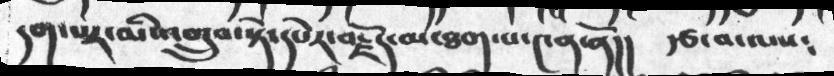དག་པར་མི་འགྲུབ་སྟེ་དཔེར་བརྗོད་མ་ཐག་པ་༤ན་ནོ།།  རྩ་བ་ལས༴
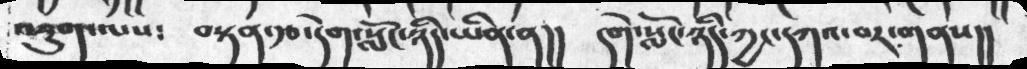འཇུག་ལས༴   བསྟན་རྩ་དགེ་སློང་ཉིད་ཡིན་ན།།   དགེ་སློང་ཉིད་ཀྱང་དཀའ་བར་གནས།།
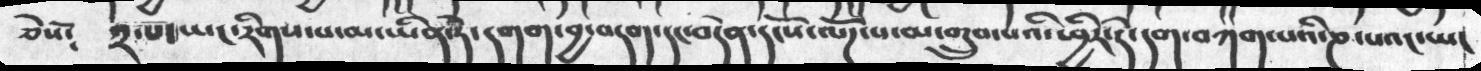ཅེསོ༴   ༢་པ་ཡང་རིགས་པ་མ་ཡིན་ཏེ་དགག་བྱ་བདག་དང་བདེན་དངོས་ལོཌ་པ་མ་གྲུབ་པའི་ཕྱིར་དེ་དག་བཀག་པའི་ཎ་པའང་ཡང
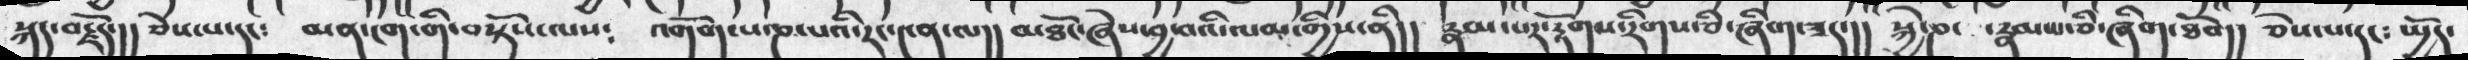སྐད་བརྗོད་།།  ཅེས་པ་དང༴  མན་ངག་གི་བསྟོད་ལས༴ འགོག་པ་ཎ་པའི་རང་༤ན་ལ།།  མཐོང་ཞེས་བྱ་བའི་ལམ་གྱིས་ནི།།  རྣམ་པར་རྟོགས་རིགས་ཅི་ཞིག་ཟད་།།  སྐྱེ་ཎ་ ་རྣམ་པ་ཅི་ཞིག་ཐོབ།།  ཅེས་པ་དང༴  སྤྱོད་
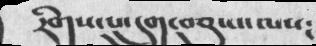རིགས་པ་དྲུག་བཅུ་པ་ལས༴
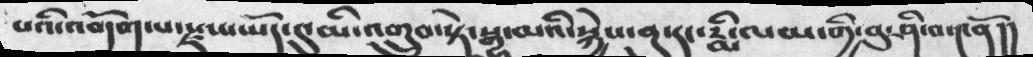པའི་འགོག་པ་སྫས་ཡོད་དུ་མི་འགྲུབ་སྟེ་སྒྱུ་མའི་སྐྱེས་བུ་དང་རྨི་ལམ་གྱི་བུ་ཤི་བ་༤ནོ།།
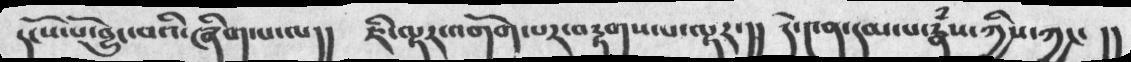དངོས་པོ་བྱུང་བའི་ཞིག་པ་ལ།།   ཇི་ལྟར་འགོག་པར་བརྟགས་པ་ལྟར་།།  དེ་༤ན་དམ་པ་རྣཾས་ཀྱིས་ཀྱང་།།
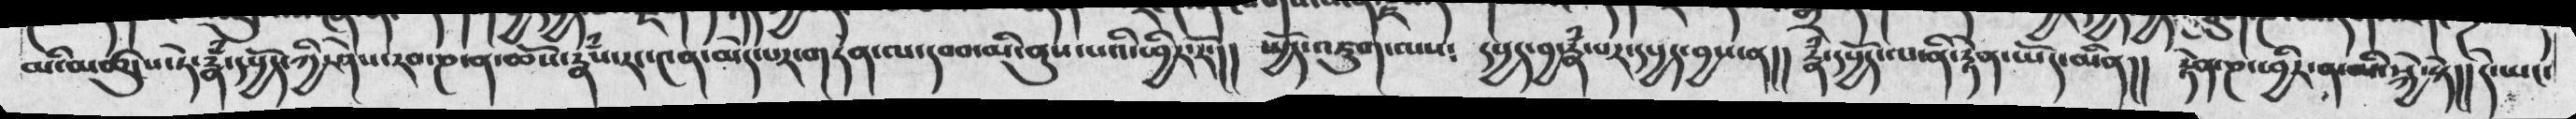མི་མཚུངས་ཏེ་རྣཾ་དཔྱོད་ཀྱི་ཤེས་རབ་ཎ་ན་ཆོས་རྣམས་རང་༤ན་མེད་གཏན་ལ་དབབ་མི་ནུས་པའི་ཕྱིར་རོ་།།  སྤྱོད་འཇུག་ལས༴   དཔྱད་བྱ་རྣཾ་པར་དཔྱད་བྱས་ན།།  རྣཾ་དཔྱོད་ལ་ནི་རྟེན་ཡོད་མིན།།   རྟེན་ཎ་ཕྱིར་ན་མི་སྐྱེ་སྟེ།།  དེ་ཡང་
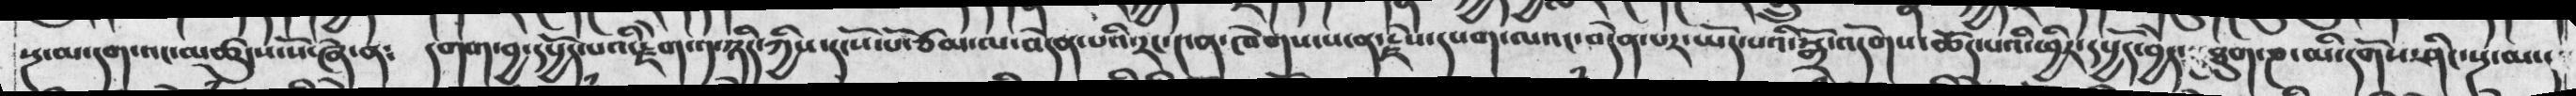སྔ་མ་དག་འང་མཚུངས་སོ་ཞེ་ན༴   དགག་བྱ་དཔྱོད་པའི་རྗེག་༡་ཉིད་ཀྱིས་དངོས་པོ་ཙམ་ལ་བདེན་པའི་རང་༤ན་ཁེགས་པ་ན་རྗེས་དཔག་ལའང་བདེན་པར་ཡོད་པའི་སྒྲོ་འདོགས་ཆོད་པའི་ཕྱིར་དཔྱོད་བྱེད་ཐུག་ཎ་མི་དགོས་ཤིང་སྔ་མ་།
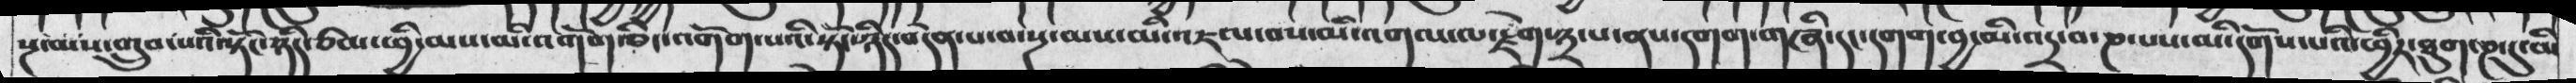སྔ་མས་གྲུབ་པའི་སྟོང་ཉིད་ཙམ་ཕྱི་མས་མི་འགོག་ཅིང་འགོག་པའི་སྟོང་ཉིད་བདེན་པ་བ་སྔ་མས་མི་འཇལ་བས་མི་འགལ་ལ་རྗེག་༣་པ་ནས་དགག་གཞི་དང་དགག་བྱ་མི་འདྲ་བ་ཎ་པས་མི་དགོས་པའི་ཕྱིར་ཐུག་ཎ་དུ་མི
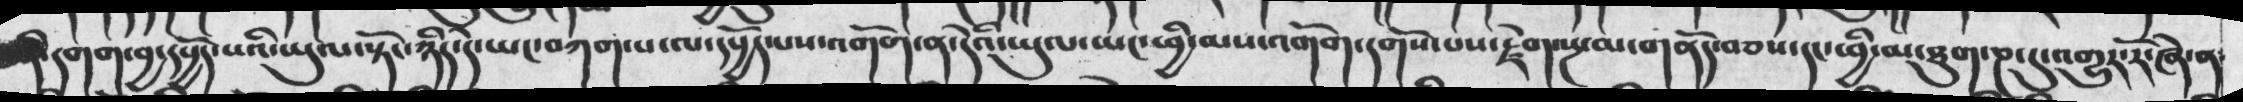དགག་བྱ་དཔྱོད་པའི་ཡུལ་སྟོང་ཉིད་དེ་ཡང་བཀག་པ་ལ་དཔྱོད་པས་འགོག་ན་དེའི་ཡུལ་ཡང་ཕྱི་མས་འགོག་དགོས་པས་རྗེག་སྔ་མ་གནོད་བཅས་དང་ཕྱི་མ་ཐུག་ཎ་དུ་འགྱུར་རོ་ཞེ་ན
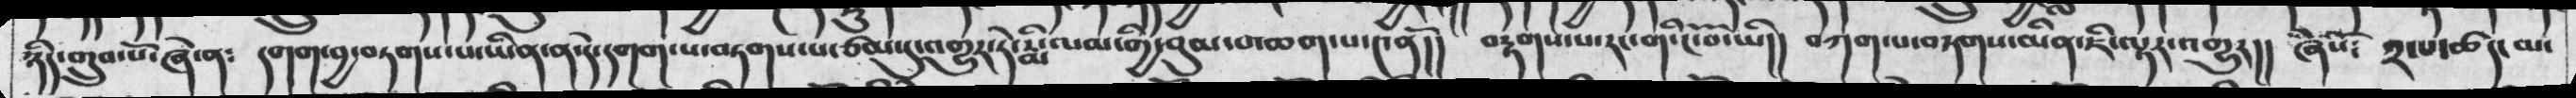ཉིད་གྲུབ་བོ་ཞེ་ན༴  དགག་བྱ་བཏགས་པ་ཡིན་ན་དེ་དགག་པ་བཏགས་པ་ཙམ་དུ་འགྱུར་ཏེ་རྨི་ལམ་གྱི་བུམ་པ་ཆག་པ་༤ནོ།།  བརྟགས་པ་རང་གི་ངོ་བོ་ཡི།།  བཀག་པ་བཏགས་མིན་ཇི་ལྟར་འགྱུར།། ཞེསོ༴   ༢་པ་ཚད་མ་
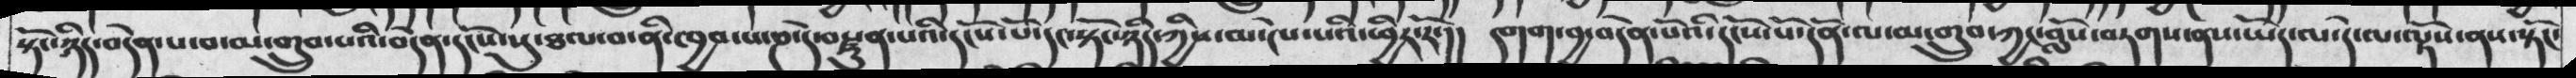སྟོང་ཉིད་བདེན་པ་བ་མ་གྲུབ་པའི་བདེན་དངོས་སུ་ཐལ་བ་ནི་ཁྱབ་པ་ཎ་དེ་བསྫུན་པའི་དངོས་པོ་དང་སྟོང་ཉིད་ཀྱིས་མ་ངེས་པའི་ཕྱིར་རོ་།། དགག་བྱ་བདེན་པོའི་དངོས་པོ་དོན་ལ་མ་གྲུབ་ཀྱང་བློས་བཏགས་ནས་ཡོད་ལ་དེ་ལ་ལྟོས་ནས་སྟོང་
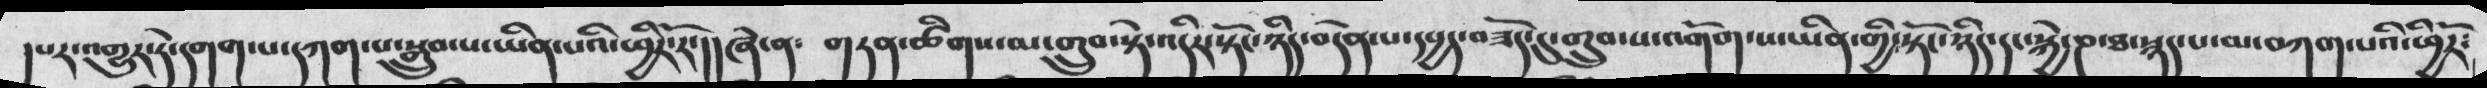།པར་འགྱུར་ཏེ་དགག་པ་དཀག་པ་སྒྲུབ་པ་ཡིན་པའི་ཕྱིར་རོ་།།ཞེ་ན༴  གཏན་ཚིགས་མ་གྲུབ་སྟེ་འདིར་སྟོང་ཉིད་བདེན་པ་དཔྱད་བཟོད་དུ་གྲུབ་པ་འགོག་པ་ཡིན་གྱི་སྟོང་ཉིད་དང་སྐྱེ་ཎ་ཐ་སྙད་པ་མ་བཀག་པའི་ཕྱིརོ༴
